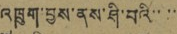འཁྲུག་བྱས་ནས་ཤི་བའི་་་་
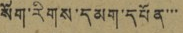སོག་རིགས་དམག་དཔོན་་་
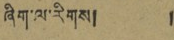ཞིག་ལ་རིགས། །
